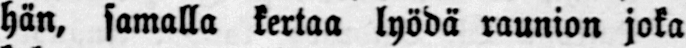hän, samalla kertaa lyödä raunion joka
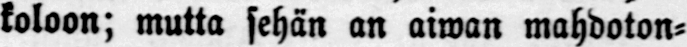koloon; mutta sehän an aiwan mahdoton-
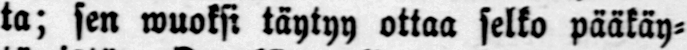ta; sen wuoksi täytyy ottaa selko pääkäy-
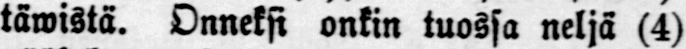täwistä. Onneksi onkin tuossa neljä (4)
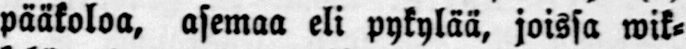pääkoloa, asemaa eli pykylää, joissa wik-
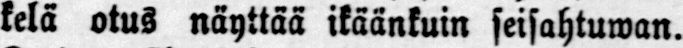kelä otus näyttää ikäänkuin seisahtuwan.
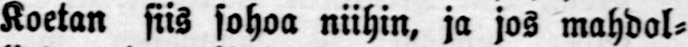Koetan siis sohoa niihin, ja jos mahdol-
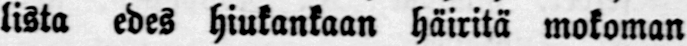lista edes hiukankaan häiritä mokoman
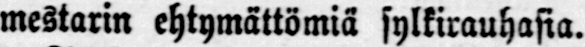mestarin ehtymättömiä sylkirauhasia.
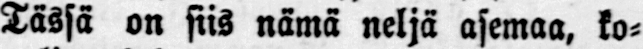Tässä on siis nämä neljä asemaa, ko-
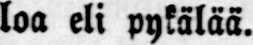loa eli pykälää.
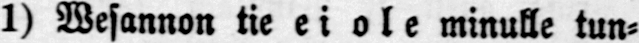1) Wesannon tie ei ole minulle tun-
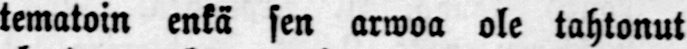tematoin enkä sen arwoa ole tahtonut
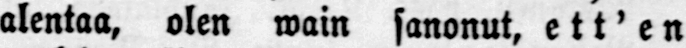alentaa, olen wain sanonut, ett'en
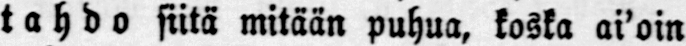tahdo siitä mitään puhua, koska ai'oin
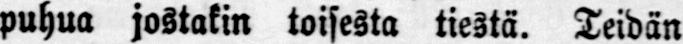puhua jostakin toisesta tiestä. Teidän
